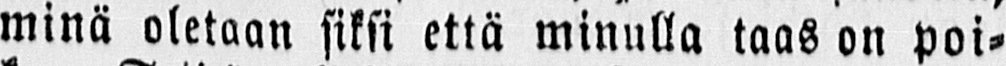minä oletaan siksi että minulla taas on poi-
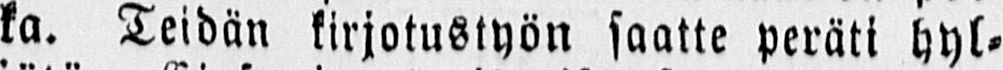ka. Teidän kirjotustyön saatte peräti hyl-
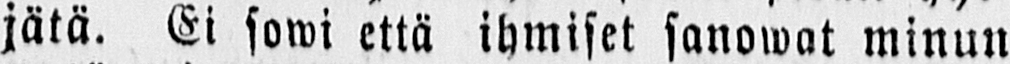jätä. Ei sowi että ihmiset sanowat minun
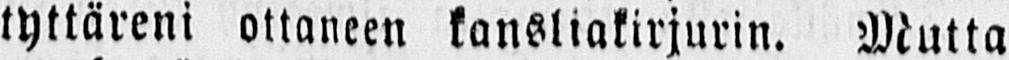tyttäreni ottaneen kansliakirjurin. Mutta
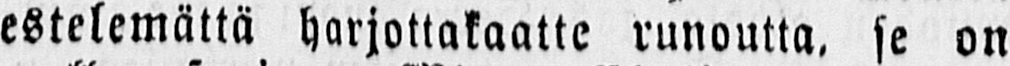estelemättä harjottakaatte runoutta, se on
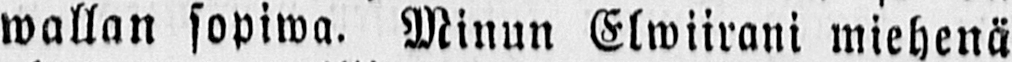wallan sopiwa. Minun Elwiirani miehenä
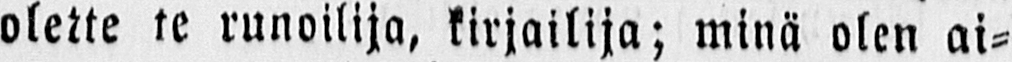olette te runoilija, kirjailija; minä olen ai-
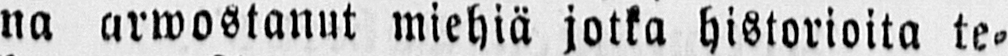na arwostanut miehiä jotka historioita te-
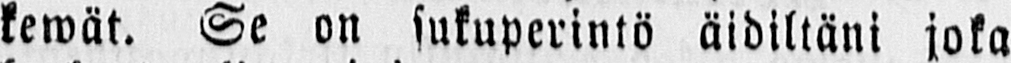kewät. Se on sukuperintö äidiltäni joka
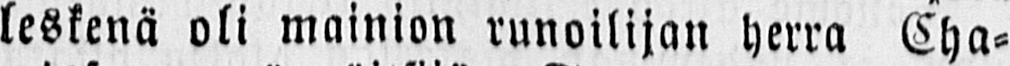leskenä oli mainion runoilijan herra Cha-
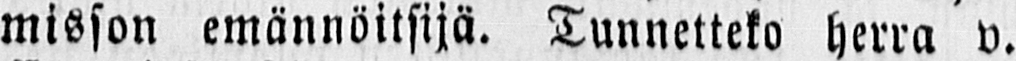misson emännöitsijä. Tunnetteko herra v.
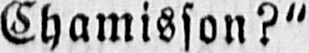Chamisson?"
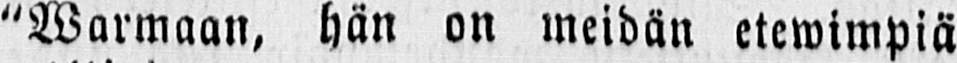"Warmaan, hän on meidän etewimpiä
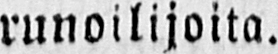runoilijoita.
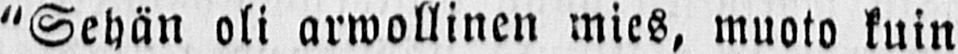"Sehän oli arwollinen mies, muoto kuin
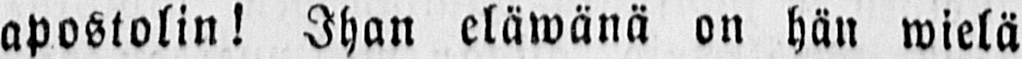apostolin! Ihan eläwänä on hän wielä
